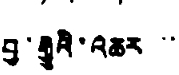བྱ་རྒྱུའི་འཆར་་
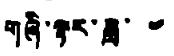གཞི་ལྟར་ཟླ་ ༤
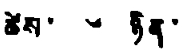ཚེས་ ༦ ཉིན་
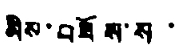མིས་བཟོས་ས་
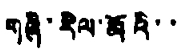གཞི་རིལ་མོའི་་
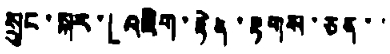སྲུང་སྐར་「འཟིག་རྟེན་རྟགས་ཅན་་
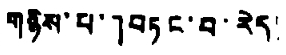གཉིས་པ་」བཏང་བ་རེད།
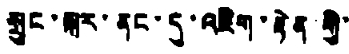སྲུང་སྐར་ནང་དུ་འཇིག་རྟེན་གྱི་
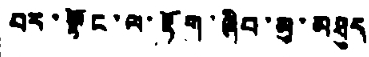བར་སྟོང་ལ་རྟོག་ཞིབ་མུ་མཐུད
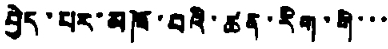བྱེད་པར་མཁོ་བའི་ཚན་རིག་གི་་་
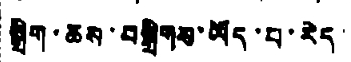སྒྲིག་ཆས་བསྒྲིགས་ཡོད་པ་རེད།
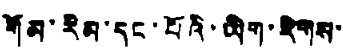གོམ་རིམ་དང་པོའི་ཡིག་རིགས་
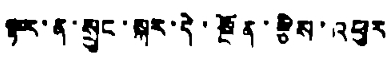ལྟར་ན་སྲུང་སྐར་དེ་སྔོན་རྩིས་འཕུར
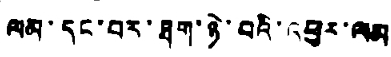ལམ་དང་བར་ཐག་ཉེ་བའི་འཕུར་ལམ
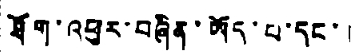ཐོག་འཕུར་བཞིན་ཡོད་པ་དང་།
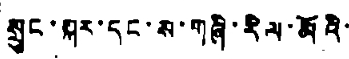སྲུང་སྐར་དང་ས་གཞི་རིལ་མོའི་་
